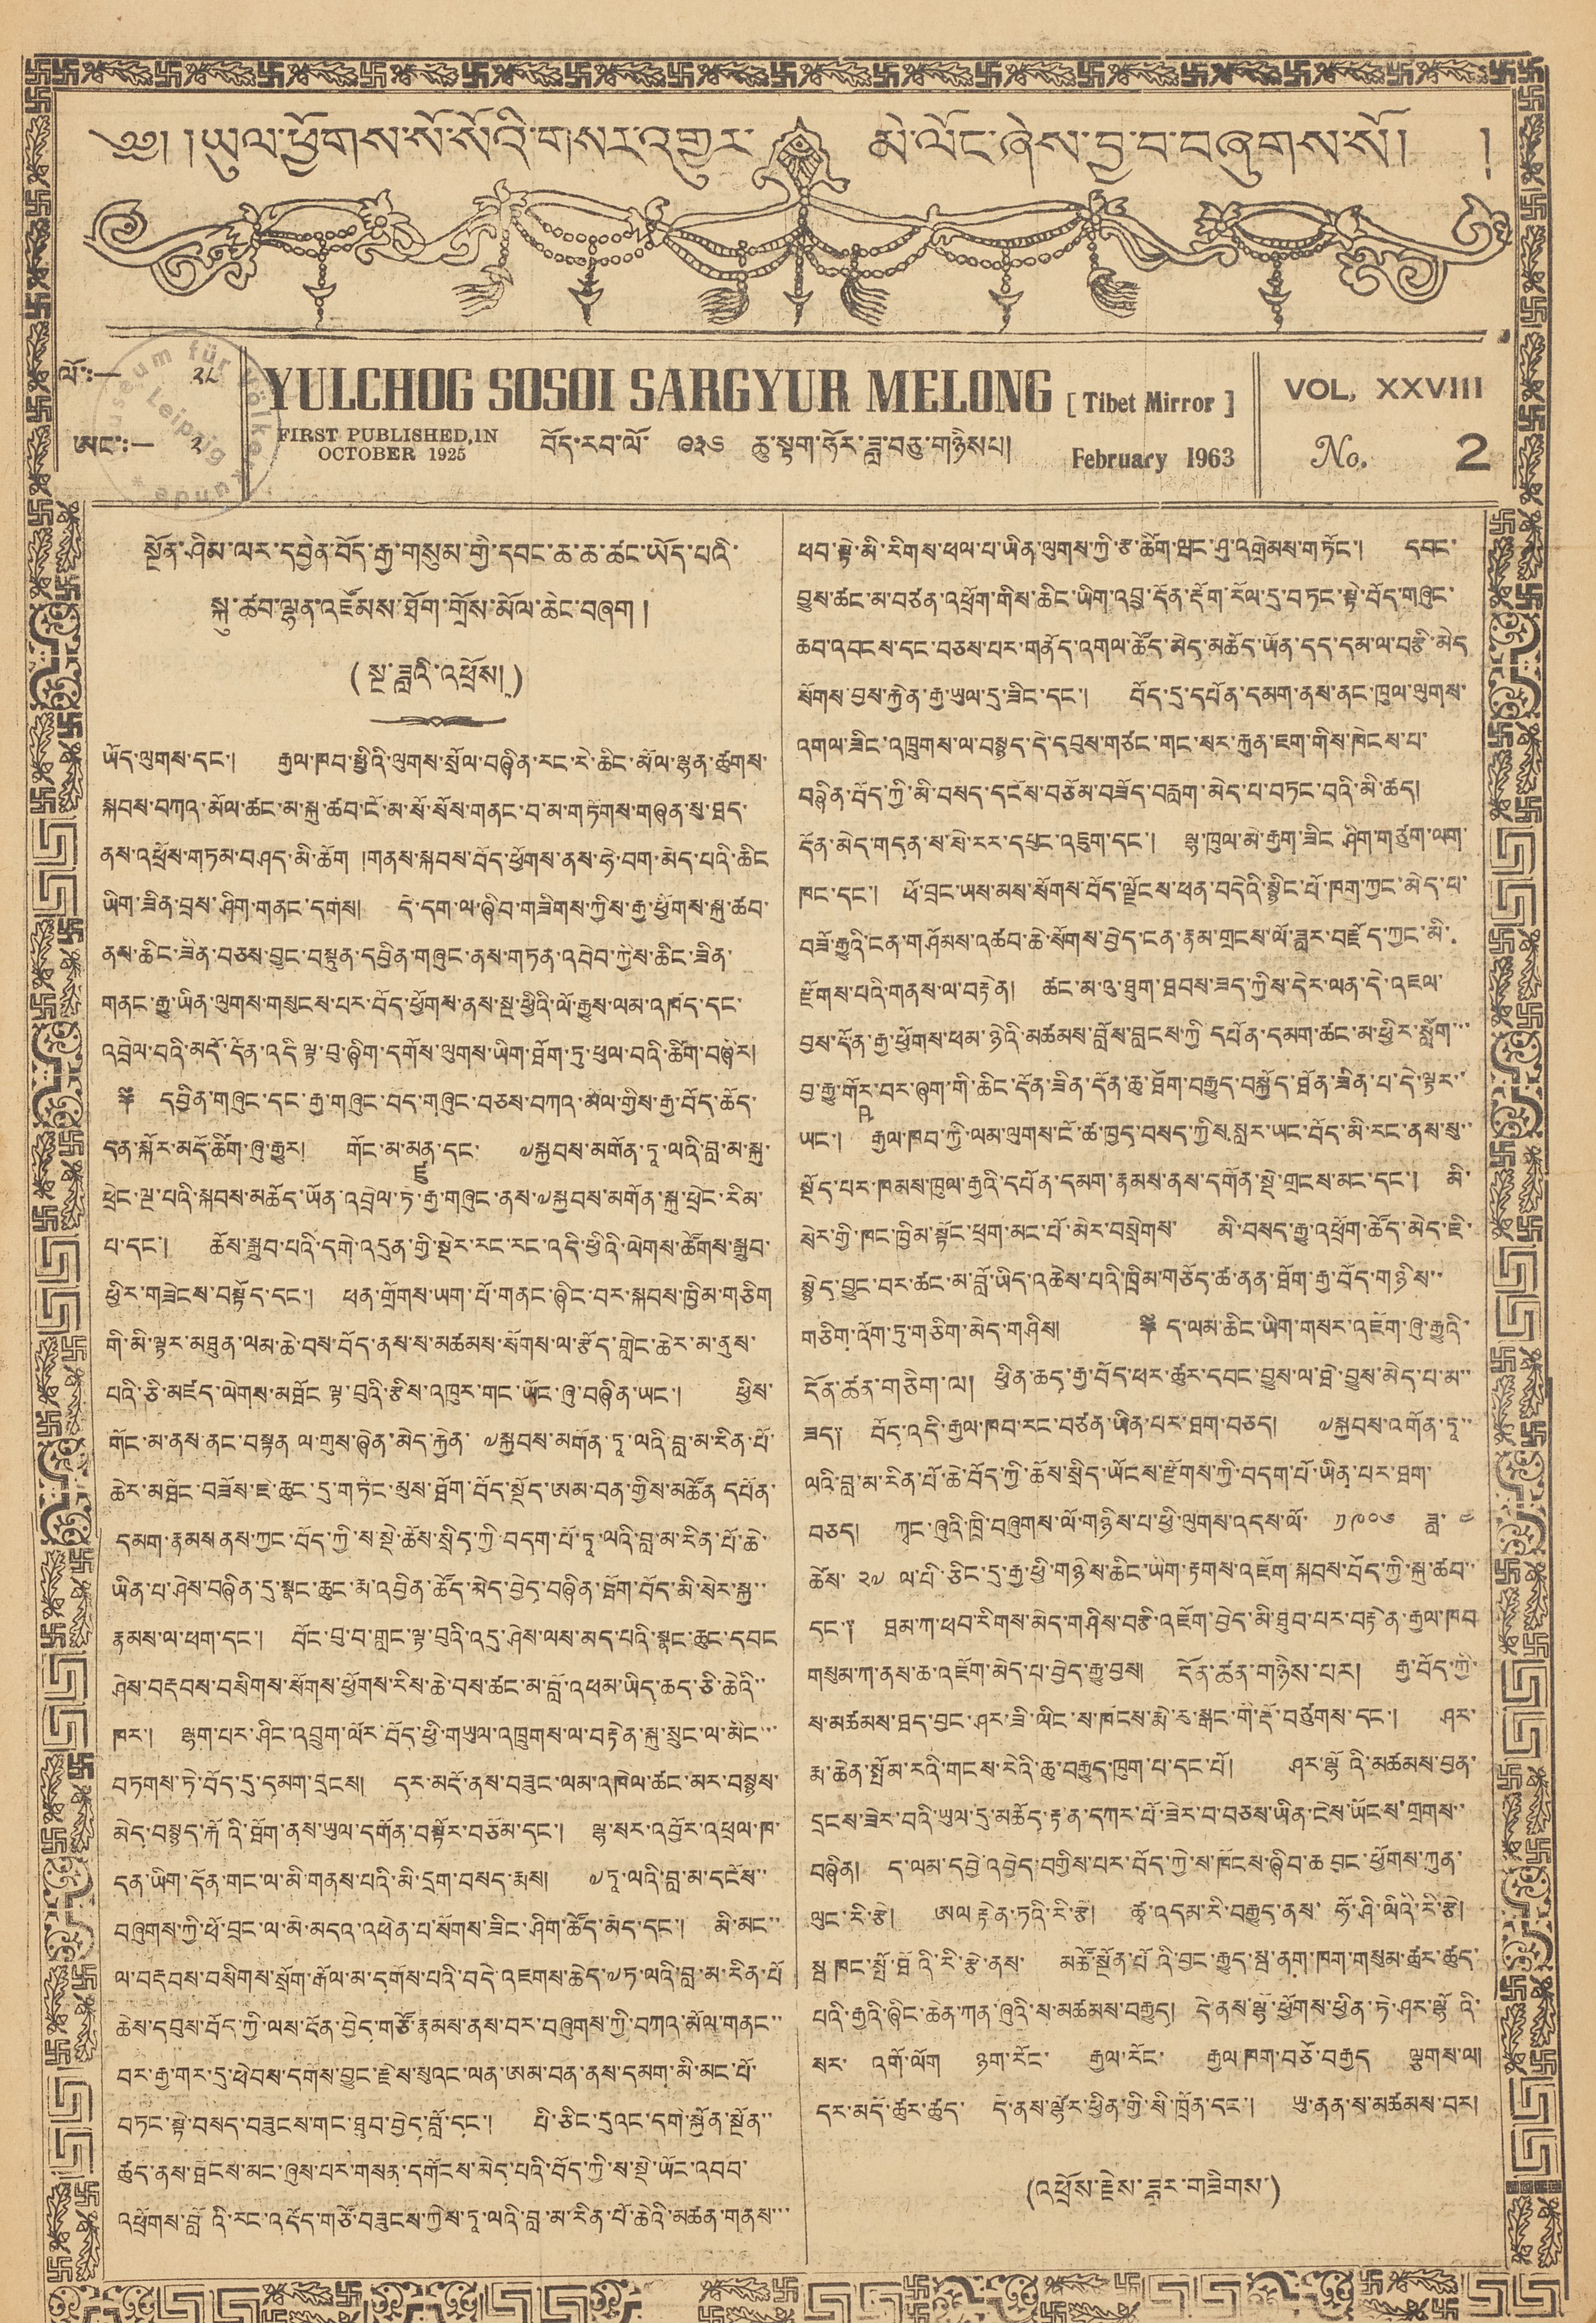༄༅། །ཡུལ་ཕྱོགས་སོ་སོའི་གསར་འགྱུར་ མེ་ལོང་ཞེས་བྱ་བ་བཞུགས་སོ། །
ལོ་:— ༢༨
ཨང་:— ༢
YULCHOG SOSOI SARGYUR MELONG [Tibet Mirror]
FIRST PUBLISHED, IN
OCTOBER 1925
བོད་རབ་ལོ་ ༩༣༦ ཆུ་སྟག་ཧོར་ཟླ་བཅུ་གཉིས་པ།
February 1963
VOL, XXVIII
No. 2
སྔོན་ཤིམ་ལར་དབྱིན་བོད་རྒྱ་གསུམ་གྱི་དབང་ཆ་ཆ་ཚང་ཡོད་པའི་
སྐུ་ཚབ་ལྷན་འཛོམས་ཐོག་གྲོས་མོལ་ཆིང་བཞག །
(སྔ་ཟླའི་འཕྲོས།)
ཡོད་ལུགས་དང་། རྒྱལ་ཁབ་སྤྱིའི་ལུགས་སྲོལ་བཞིན་རང་རེ་ཆིང་མོལ་ལྷན་ཚུགས་
སྐབས་བཀའ་མོལ་ཚང་མ་སྐུ་ཚབ་ངོ་མ་སོ་སོས་གནང་བ་མ་གཏོགས་གཞན་སུ་ཐད་
ནས་འཕྲོས་གཏམ་བཤད་མི་ཆོག །གནས་སྐབས་བོད་ཕྱོགས་ནས་ཧེ་བག་མེད་པའི་ཆིང
ཡིག་ཟིན་བྲས་ཤིག་གནང་དགས། དེ་དག་ལ་ཞིབ་གཟིགས་ཀྱིས་རྒྱ་ཕྱོགས་སྐུ་ཚབ་
ནས་ཆིང་ཟིན་བཅས་བྱུང་བསྟུན་དབྱིན་གཞུང་ནས་གཏན་འབེབ་ཀྱིས་ཆིང་ཟིན་
གནང་རྒྱུ་ཡིན་ལུགས་གསུངས་པར་བོད་ཕྱོགས་ནས་སྔ་ཕྱིའི་ལོ་རྒྱུས་ལམ་འཁད་དང་
འབྲེལ་བའི་མདོ་དོན་འདི་ལྟ་བུ་ཞིག་དགོས་ལུགས་ཡིག་ཐོག་ཏུ་ཕུལ་བའི་ཚིག་བཞིར།
༈ དབྱིན་གཞུང་དང་རྒྱ་གཞུང་བོད་གཞུང་བཅས་བཀའ་མོལ་གྱིས་རྒྱ་བོད་ཆོད་
དན་སྐོར་མདོ་ཚིག་ཞུ་རྒྱུར། གོང་མ་མནྫུ་དང་ ༸སྐྱབས་མགོན་ཏཱ་ལའི་བླ་མ་སྐུ་
ཕྲེང་ལྔ་པའི་མཆོད་ཡོན་འབྲེལ་ཏེ་རྒྱ་གཞུང་ནས་༸སྐྱབས་མགོན་སྐུ་ཕྲེང་རིམ་
པ་དང་། ཆོས་སྒྲུབ་པའི་དགེ་འདུན་གྱི་སྡེར་རང་རང་འདི་ཕྱིའི་ལེགས་ཚོགས་སྒྲུབ་
ཕྱིར་གཟེངས་བསྟོད་དང་། ཕན་གྲོགས་ཡག་པོ་གནང་ཞིང་བར་སྐབས་ཁྱིམ་གཅིག
གི་མི་ལྟར་མཐུན་ལམ་ཆེ་བས་བོད་ནས་ས་མཚམས་སོགས་ལ་རྩོད་གླེང་ཆེར་མ་ནུས་
པའི་ཅི་མཛད་ལེགས་མཐོང ལྷ་བུའི་རྩིས་འཁུར་གང་ཡོང་ཞུ་བཞིན་ཡང་། ཕྱིས་
གོང་མ་ནས་ནང་བསྟན ལ་གུས་ཞེན་མེད་རྐྱེན་ ༸སྐྱབས་མགོན་ཏཱ་ལའི་བླ་མ་རིན་པོ་
ཆེར་མཐོང་བཟོས་ཇེ་ཆུང་དུ་གཏེར་མུས་ཐོག་བོད་སྡོད་ཨམ་བན་གྱིས་མཚོན དཔོན་
དམག་རྣམས ནས་ཀྱང་བོད་ཀྱི་ས་སྡེ་ཆོས་སྲིད་ཀྱི་བདག་པོ་ཏཱ་ལའི་བླ་མ་རིན་པོ་ཆེ་
ཡིན་པ་ཤེས་བཞིན་དུ་སྣང་ཆུང་རྨ་འབྱིན་ཚོད་མེད་བྱེད་བཞིན་ཐོག་བོད་མི་སེར་སྐྱ་་
རྣམས་ལ་ཕག་དང་། བོང་བུ་བ་གླང་ལྟ་བུའི་འདུ་ཤེས་ལས་མད་པའི་སྣང་ཆུང་དབང
ཤེས་བརྡབས་བསིགས་སོགས་ཕྱོགས་རིས་ཆེ་བས་ཚང་མ་བློ་འཕམ་ཡིད་ཆད་ཅི་ཆེའི་་
ཁར་། ལྷག་པར་ཤིང་འབྲུག་ལོར་བོད་ཕྱི་གཡུལ་འཁྲུགས་ལ་བརྟེན་སྐུ་སྲུང་ལ་མིང་་་
བཏགས་ཏེ་བོད་དུ་དམག་དྲངས། དར་མདོ་ནས་བཟུང་ལམ་འཁེལ་ཚང་མར་བསྙས་
མེད་བསྙད་རྐོའི་ཐོག་ནས་ཡུལ་དགོན་བསྟོར་བཅོམ་དང་། ལྷ་སར་འབྱོར་འཕྲལ་ཁ་
དན་ཡིན་དོན་གང་ལ་མི་གནས་པའི་མི་དྲག་བསད་རྨས། ༸ཏཱ་ལའི་བླ་མ་དངོས་་
བཞུགས་ཀྱི་ཕོ་བྲང་ལ་མེ་མདའ་འཕེན་པ་སོགས་ཟིང་ཤིག་ཚོད་མེད་དང་། མི་མང་་
ལ་བརྡབས་བསིགས་སྲོག་རྒོལ་མ་དགོས་པའི་བདེ་འཇགས་ཆེད་༸ཏ་ལའི་བླ་མ་རིན་པོ་
ཆེས་དབུས་བོད་ཀྱི་ལས་ངོན་བྱེད་གཙོ་རྣམས་ནས་བར་བཞུགས་ཀྱི་བཀའ་མོལ་གནང་་
བར་རྒྱ་གར་དུ་ཕེབས་དགོས་བྱུང་རྗེས་སུའང་ལན་ཨམ་བན་ནས་དམག་མི་མང་པོ་
བཏང་སྟེ་བསད་བཟུངས་གང་ཐུབ་བྱེད་བློ་དང་། པེ་ཅིང་དུའང་དགེ་སྐྱོན་སྔོན་་
ཚུད་ནས་ཐོངས་མང་ཞུས་པར་གསན་དགོངས་མེད་པའི་བོད་ཀྱི་ས་སྡེ་ཡོང་འབབ་
འཕྲོགས་བླའི་རང་འདོད་གཙོ་བཟུངས་ཀྱིས་ཏཱ་ལའི་བླ་མ་རིན་པོ་ཆེའི་མཚན་གནས་་་
ཕབ་སྟེ་མི་རིགས་ཕལ་པ་ཡིན་ལུགས་ཀྱི་རྩ་ཚིག་ཝང་ཤུ་འགྲེམས་གཏོང་། དབང་
བྱུས་ཚང་ལ་བཙན་འཕྲོག་གིས་ཆིང་ཡིག་འབྲུ་དོན་རྡོག་རོལ་དུ་བཏང་སྟེ་བོད་གཞུང་
ཆབ་འབངས་དང་བཅས་པར་གནོད་འགལ་ཚོད་མེད་མཆོད་ཡོན་དད་དམ་ལ་བརྩི་མེད་
སོགས་བྱས་རྐྱེན་རྒྱ་ཡུལ་དུ་ཟིང་དང་། བོད་དུ་དཔོན་དམག་ནས་ནང་ཁུལ་ལུགས་
འགལ་ཟིང་འཁྲུགས་ལ་བསྙད་དེ་དབུས་གཙང་གང་སར་རྐུན་ཇག་གིས་ཁེངས་པ་
བཞིན་བོད་ཀྱི་མི་བསད་དངོས་བཅོམ་བཟོད་བརླག་མེད་པ་བཏང་བའི་མི་ཚད།
དོན་མེད་གདན་ས་སེ་རར་དཔྱང་འཇུག་དང་། ལྷ་ཁུལ་མེ་རྒྱག་ཟིང་ཤིག་གཙུག་ལག་
ཁང་དང་། ཕོ་ཕྲང་ཡས་མས་སོགས་བོད་ལྗོངས་ཕན་བདེའི་སྙིང་པོ་ཁག་ཀྱང་མེད་པ་
བཟོ་རྒྱུའི་ངན་གཤོམས་འཚབས་ཆེ་སོགས་བྱེད་ངན་རྣམ་གྲངས་ལོ་ཟླར་བརྗོད་ཀྱང་མི་
རྫོགས་པའི་གནས་ལ་བརྟེན། ཚང་མ་འུ་ཐུག་ཐབས་ཟད་ཀྱིས་དེར་ལན་དེ་འཇལ་
བྱས་དོན་རྒྱ་ཕྱོགས་ཕམ་ཉེའི་མཚམས་བློས་བླངས་ཀྱི་དཔོན་དམག་ཚང་མ་ཕྱིར་སློག་་་
བྱ་རྒྱུ་གོརྵ་བར་ཞག་གི་ཆིང་དོན་ཟིན་དོན་ཆུ་ཐོག་བརྒྱུད་བསྐྱོད་ཐོན་ཟིན་པ་དེ་ལྟར་་
ཡང་། རྒྱལ་ཁབ་ཀྱི་ལམ་ལུགས་ངོ་ཚ་ཁྱད་བསད་ཀྱིས་སླར་ཡང་བོད་མི་རང་ནས་སུ་་
སྡོད་པར་ཁམས་ཁུལ་རྒྱའི་དཔོན་དམག་རྣམས་ནས་དགོན་སྡེ་གྲངས་མང་དང་། མི་
སེར་གྱི་ཁང་ཁྱིམ་སྟོང་ཕྲག་མང་པོ་མེར་བསྲེགས་ མི་བསད་རྒྱུ་འཕྲོག་ཚོད་མེད་ཇི་
སྙེད་བྱུང་བར་ཚང་མ་བློ་ཡིད་འཆེས་པའི་ཁྲིམ་གཅོད་ཚ་ནན་ཐོག་རྒྱ་བོད་གཉིས་་
གཅིག་འོག་ཏུ་གཅིག་མེད་གཤིས། ༈ ད་ལམ་ཆིང་ཡིག་གསར་འཇོག་ཞུ་རྒྱུའི་
དོན་ཚན་གཅིག་ལ། ཕྱིན་ཆད་རྒྱ་བོད་ཕར་ཚུར་བདང་བྱུས་ལ་ཐེ་བྱུས་མེད་པ་མ་་
ཟད༑ བོད་འདི་རྒྱལ་ཁབ་རང་བཙན་ཡིན་པར་ཐག་བཅད། ༸སྐྱབས་འགོན་ཏཱ་་
ལའི་བླ་མ་རིན་པོ་ཆེ་བོད་ཀྱི་ཆོས་སྲིད་ཡོངས་རྫོགས་ཀྱི་བདག་པོ་ཡིན་པར་ཐག་
བཅད་། ཀྭང་ཞུའི་ཁྲི་བཞུགས་ལོ་གཉིས་པ་ཕྱི་ལུགས་འདས་ལོ་ ༤༩༠༦ ཟླ་ ༤
ཚེས་ ༢༧ ལ་པི་ཅིང་དུ་རྒྱ་ཕྱི་གཉིས་ཆིང་ཡིག་རྟགས་འཇོག་སྐབས་བོད་ཀྱི་སྐུ་ཚབ་་
དང་༑ ཐམ་ཀ་ཕབ་རིགས་མེད་གཤིས་བརྩི་འཇོག་བྱེད་མི་ཐུབ་པར་བརྟེན་རྒྱལ་ཁབ
གསུམ་ཀ་ནས་ཆ་འཇོག་མེད་པ་བྱེད་རྒྱུ་བྱས། དོན་ཚན་གཉིས་པར། རྒྱ་བོད་ཀྱི་
ས་མཚམས་ཐད་བྱང་ཤར་ཟི་ལིང་ས་ཁོངས་རྨེ་རུ་སྒང་གི་རྡོ་བཙུགས་དང་། ཤར་
རྨ་ཆེན་སྤོམ་རའི་གངས་རིའི་ཆུ་བརྒྱུད་ཁུག་པ་དང་པོ། ཤར་ལྷོའི་མཚམས་བྱན་
དྲངས་ཟེར་བའི་ཡུལ་མཆོད་རྟན་དཀར་པོ་ཟེར་བ་བཅས་ཡིན་ངེས་ཡོངས་གྲགས་་
བཞིན། ད་ལམ་དབྱེ་འབྱེད་བགྱིས་པར་བོད་ཀྱི་ཁོངས་ཞིབ་ཆ བྱང་ཕྱོགས་ཀུན་
ལུང་རི་རྩེ། ཨལ་རྟེན་ཏའི་རི་རྩེ། ཚྭ་འདམ་རི་བརྒྱུད་ནས་ ཧོ་ཤི་ལིའི་རོ་རྩེ།
སྦ་ཁང་སྤོ་ཐོའི་རི་རྩེ་ནས་ མཚོ་སྔོན་པོའི་བྱང་རྒྱུད་སྦ་ནག་ཁག་གསུམ་ཚུར་ཚུད་
པའི་རྒྱའི་ཞིང་ཆེན་ཀན་ཞུའི་ས་མཚམས་བརྒྱུད། དེ་ནས་ལྷོ་ཕྱོགས་ཕྱིན་ཏེ་ཤར་ལྷོའི་
སར་ འགོ་ལོག ཉག་རོང་ རྒྱལ་རོང་ རྒྱལ་ཁག་བཅོ་བརྒྱད་ ལྕགས་ལ།
དར་མདོ་ཚུར་ཚུད་ དེ་ནས་ལྷོར་ཕྱིན་གྱི་སི་ཁྲོན་དང་། ཡུ་ནན་ས་མཚམས་བར།
(འཕྲོས་རྗེས་ཟླར་གཟིགས་)
